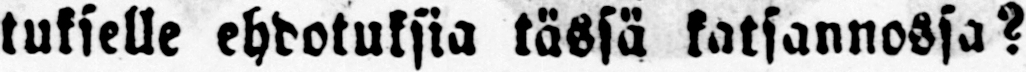tukselle ehdotuksia tässä katsannossa?
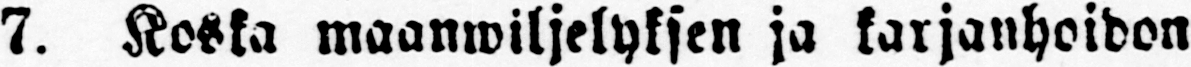7. Koska maamviljelyksen ja karjanhoidon
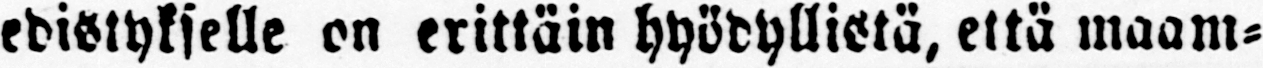edistykselle on erittäin hyödyllistä, että maam-
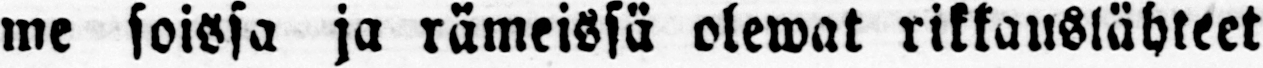me soissa ja rämeissä olemat rikkauSlähteet
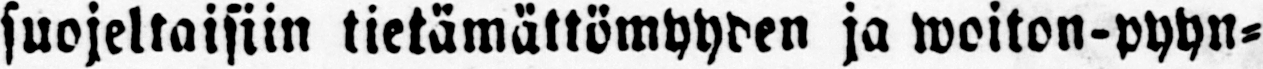suojeltaisiin tietämättömyyden ja voiton-pyyn-
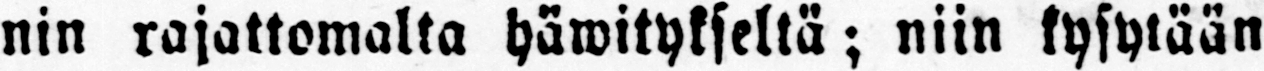nin rajattomalta hämitykseltä; niin kysytään
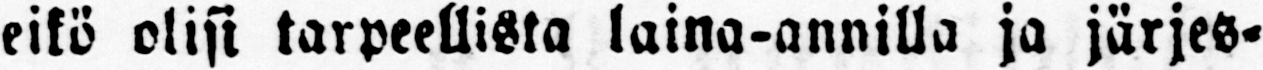eikö olisi tarpeellista laina-annilla ja järjes-
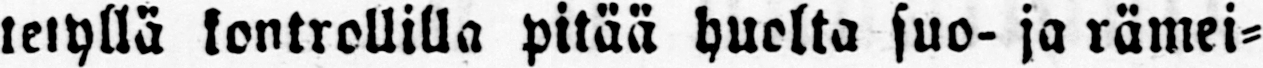telyllä kontrollilla pitää huolta suo- ja rämei-
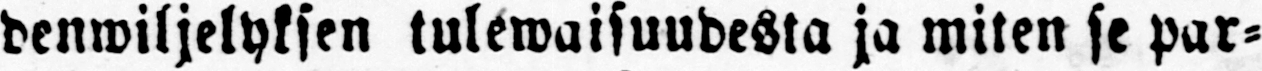denwiljelyksen tulewaisuudesta ja miten se par-
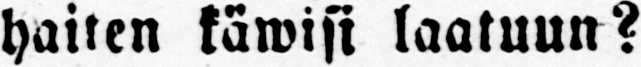haiten käwisi laatuun?
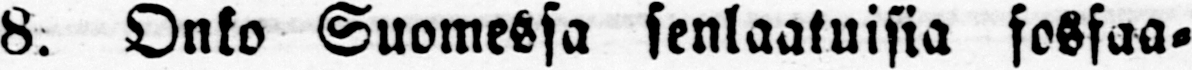8. Onko Suomessa senlaatuisia fosfaa-
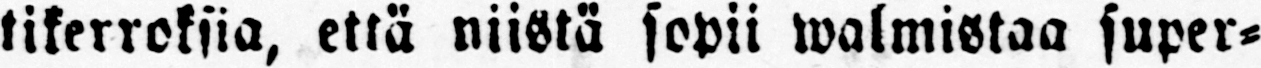tikerroksia, että niistä sopii walmistaa super-
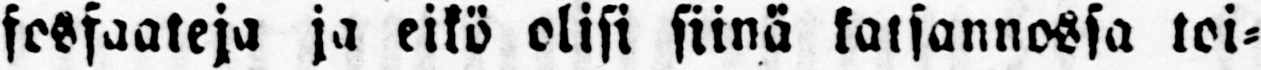fosfaateja ja eikö olisi siinä katsannossa toi-
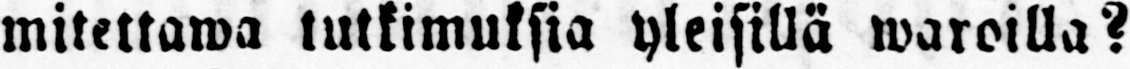mitettawa tutkimuksia yleisillä waroilla?
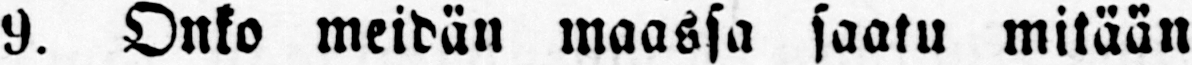9. Onko meidän maassa saatu mitään
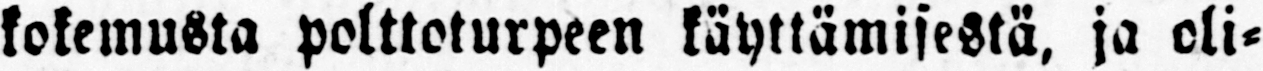kokemusta polttoturpeen käyttämisestä, ja oli-
